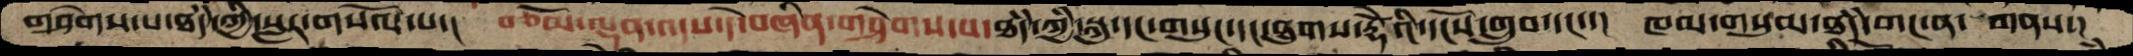གཤེགས་པ་ཐཾད་ཀྱི་སླར་གསོལ་པ་།  བཅོམ་ལྡན་འདས་དེ་བཞིན་གཤེགས་པ་ཐཾད་ཀྱི་སྐུ་དང་གསུང་དང་ཐུགས་རྡོེའི་དངོས་གྲུབ་དང་་།  ཁམས་གསུམ་ཐྃད་གང་ན་ གནས་།
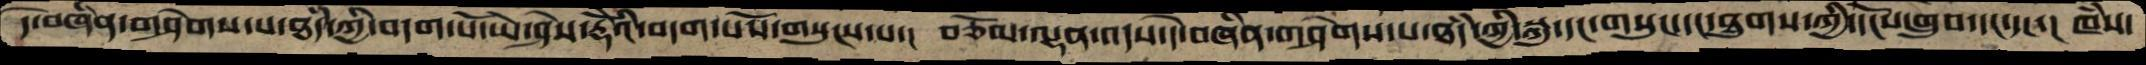དེ་བཞིན་གཤེགས་པ་ཐཾད་ཀྱི་བདག་པོ་ཡེ་ཤེས་རྡོེའི་བདག་པོས་གསུངས་པ་།   བཅོམ་ལྡན་འདས་དེ་བཞིན་གཤེགས་པ་ཐཾད་ཀྱི་སྐུ་དང་གསུང་དང་ཐུགས་ཀྱི་དངོས་གྲུབ་དང་དང་།  ཁཾས་
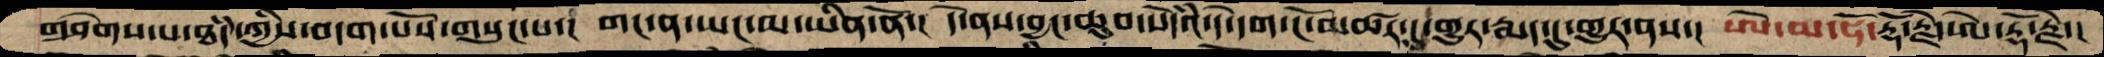གཤེགས་པ་ཐཾད་ཀྱིས་བདག་པོས་གསུང་པ་།  གང་ན་ཡང་མ་ཡིན་ནོ་།  དེ་ནས་བྱང་ཆུབ་སེདཾའ་དེ་དག་ངོ་མཚར་དུ་གྱུར་རྨད་དུ་གྱུར་ནས་།  ཨེ་མ་ཧོ་རྡོ་རྗེ་ཨེ་རྡོ་རྗེ་།
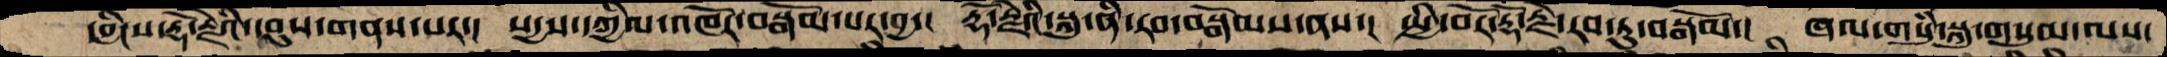དབྱིངས་རྡོ་རྗེའི་དབུས་གནས་པར་།   སདྱས་དཀྱིལ་འཁོར་བསྒོམ་པར་བྱ་།  རྡོ་རྗེའི་སྐུ་ནི་རབ་བསྒོམས་ནས་།  སྤྱི་བོར་རྡོ་རྗེ་རབ་ཏུ་བསྒོམ་།  ཞལ་གསུཾ་སྐུ་གསུམ་ལས་
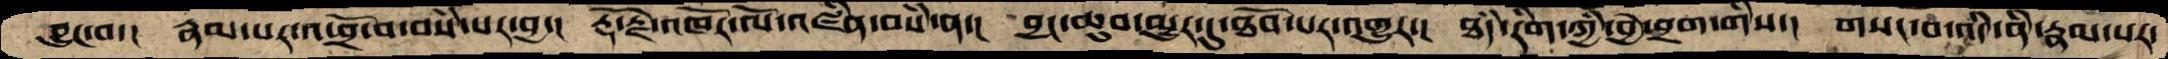བྱུང་བ་།   རྣམ་པར་འཕྲོ་བ་བསཾ་པར་བྱ་།  རྡོ་རྗེ་འཁོར་ལོ་འཛིན་བསཾ་ན་།  བྱང་ཆུབ་མྱུར་དུ་ཐོབ་པར་འགྱུར་།  ཐཾད་རིག་ཀྱི་བྱེ་བྲག་གིས་།  གསང་བ་འདི་ནི་རྣམ་པར་
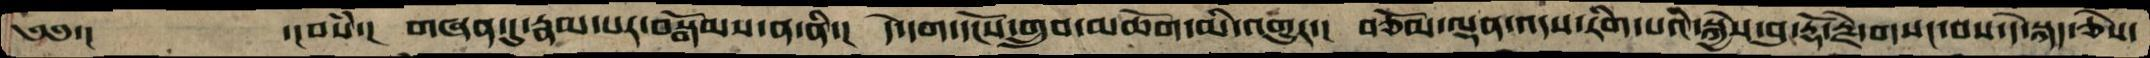༄༅་།      ་།བསཾ་།  གཞན་དུ་རྣམ་པར་བསྒོམས་ན་ནི་།  དེ་དག་དངོས་གྲུབ་མཆོག་མི་འགྱུར་།  བཅོམ་ལྡན་འདས་རིག་པའི་སྐྱེས་བུ་རྡོ་རྗེ་གསང་བས་དེ་སྐད་ཅེས་
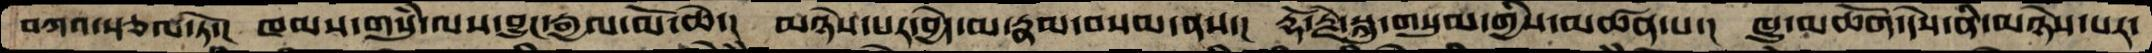བཀའ་སྩལ་ཏོ་།  ཁམས་གསུཾ་ལས་བྱུང་རྒྱལ་མོ་ཆེ་།  མཉེས་པར་བྱེད་མ་རྣམ་བསམ་ནས་།  རྡོ་རྗེ་སྐུ་གསུམ་གྱིས་མཚན་པ་།  ཁྱུ་མཆོག་དེས་ནི་མཉེས་པར་
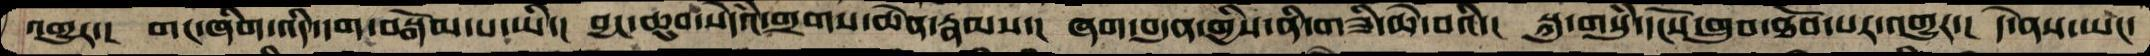འགྱུར་།   གང་ཞིག་འདི་དག་བསྒོམ་པ་ཡི་།  བྱང་ཆུབ་སེདཾའ་གྲགས་ཆེན་རྣམས་།  ཞག་བདུན་གྱིས་ནི་གཟི་ཆེ་བའི་།  སྐུ་གསུཾ་དངོས་གྲུབ་ཐོབ་པར་འགྱུར་།  དེ་ནས་ཡང་
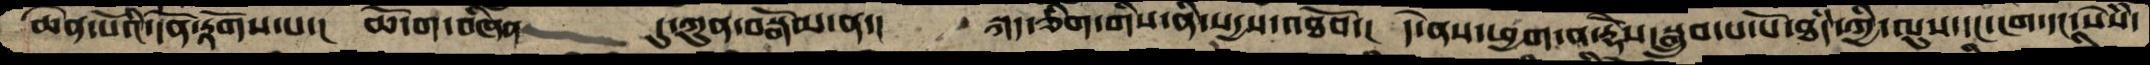ཆེན་པོའི་དོན་རྟོགས་པ་།  ཆོ་ག་བཞིན་    དུ་ཀུན་བསྒོམ་ན་།  སྐད་ཅིག་གིས་ནི་སདྱས་འཐོབ་།   དེ་ནས་ཕྱག་ན་རྡོེས་སྒྲུབ་པ་པོ་ཐཾད་ཀྱི་ལུས་དང་ངག་དང་སེསཾ་
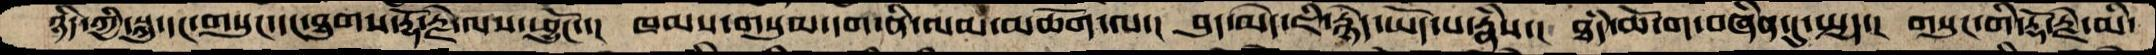ཉིད་ཀྱི་སྐུ་དང་གསུང་དང་ཐུགས་རྡོ་རྗེ་ལས་ཕྱུངོ་་།  ཁམས་གསུམ་དག་ནི་ལམ་མཆོག་ལ་།  བུད་མེད་ཇི་རྙེད་ཡོད་པ་རྣཾས་།  ཐཾད་ཆོ་ག་བཞིན་དུ་སྤྱད་།  གསུང་གི་རྡོ་རྗེ་མི་
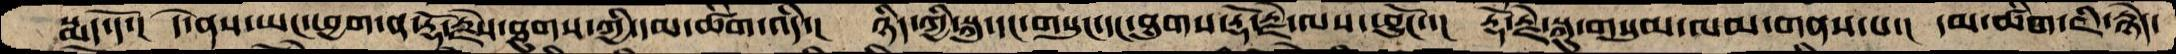སྨད་དོ་།  དེ་ནས་ཡང་ཕྱག་ན་རྡོ་རྗེས་ཐུགས་ཀྱི་དམ་ཚིག་འདི་།  ཉིད་ཀྱི་སྐུ་དང་གསུང་དང་ཐུགས་རྡོ་རྗེ་ལས་ཕྱུངོ་་།  རྡོ་རྗེ་སྐུ་གསུམ་ལམ་གནས་པ་།  དམ་ཚིག་ཇི་རྙེད་
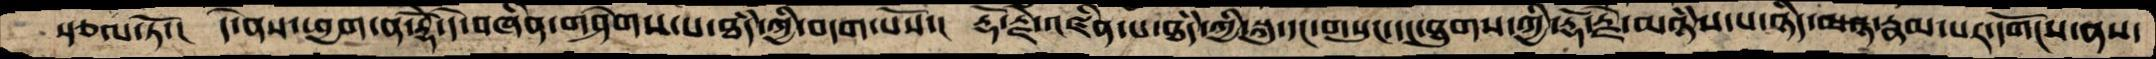སྩལ་ཏོ་།  དེ་ནས་ཕྱག་ན་རྡོེ་དེ་བཞིན་གཤེགས་པ་ཐཾད་ཀྱི་བདག་པོས་།  རྡོ་རྗེ་འཛིན་པ་ཐཾད་ཀྱི་སྐུ་དང་གསུང་དང་ཐུགས་ཀྱི་རྡོ་རྗེ་མཉཾས་པ་ཉིད་རྣམ་པར་དགོངས་ནས་
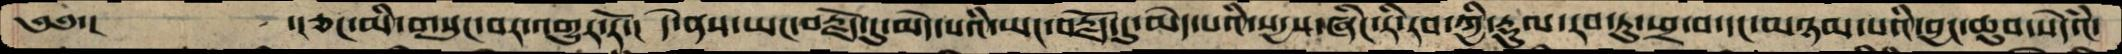༄༅་།     ་།ཅང་མི་གསུང་བར་འགྱུར་རོ་།  དེ་ནས་ཡང་བརྗོད་དུ་མེད་པའི་ཡང་བརྗོད་དུ་མེད་པའི་སདྱས་ཞིང་རི་རབ་ཀྱི་རྡུལ་རབ་ཏུ་ཕྲ་བ་དང་མཉམ་པའི་བྱང་ཆུབ་སེདཾའ་
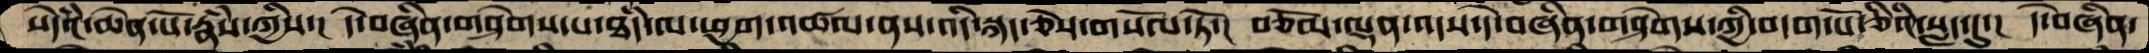སེདཾའ་ཆེན་པོ་རྣཾས་ཀྱིས་།  དེ་བཞིན་གཤེགས་པ་ཐཾད་ལ་ཕྱག་འཚལ་ནས་འདི་སྐད་ཅེས་གསོལ་ཏོ་།  བཅོམ་ལྡན་འདས་དེ་བཞིན་གཤེགས་ཀྱི་བདག་པོ་ཅིའི་སླད་དུ་།  དེ་བཞིན་
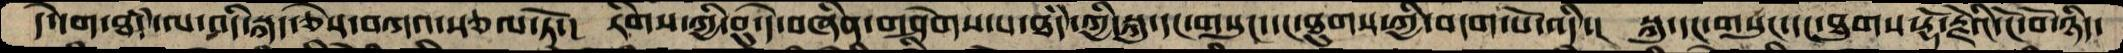དེ་དག་ཐཾད་ལ་འདི་སྐད་ཅེས་བཀའ་སྩལ་ཏོ་།  རིགས་ཀྱི་བུ་དེ་བཞིན་གཤེགས་པ་ཐཾད་ཀྱི་སྐུ་དང་གསུང་དང་ཐུགས་ཀྱི་བདག་པོ་འདི་།   སྐུ་དང་གསུང་དང་ཐུགས་རྡོ་རྗེའི་ངོ་བོ་ཉིད་
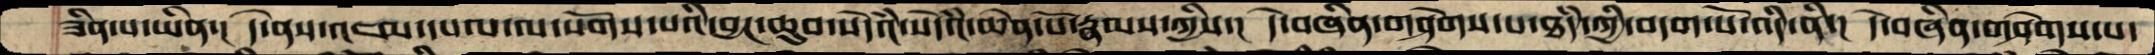ཟིན་པ་ཡིན་།  དེ་ནས་འཇམ་དཔལ་ལ་སོགས་པའི་བྱང་ཆུབ་སེདཾའ་སེདཾའ་ཆེན་པོ་རྣམས་ཀྱིས་།  དེ་བཞིན་གཤེགས་པ་ཐཾད་ཀྱི་བདག་པོ་འདི་ནི་།  དེ་བཞིན་གཤེགས་པ་
